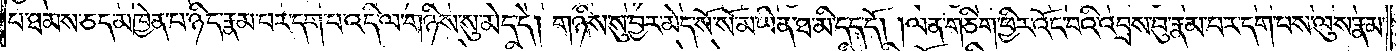པ་ཐམས་ཅད་མཁྱེན་པ་ཉིད་རྣམ་པར་དག་པ་འདི་ལ་གཉིས་སུ་མེད་དེ། གཉིས་སུ་བྱར་མེད་སོ་སོ་མ་ཡིན་ཐ་མི་དད་དོ། །ལན་གཅིག་ཕྱིར་འོང་བའི་འབྲས་བུ་རྣམ་པར་དག་པས་ལུས་རྣམ་
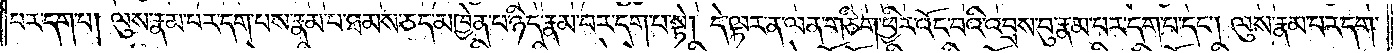པར་དག་པ། ལུས་རྣམ་པར་དག་པས་རྣམ་པ་ཐམས་ཅད་མཁྱེན་པ་ཉིད་རྣམ་པར་དག་པ་སྟེ། དེ་ལྟར་ན་ལན་གཅིག་ཕྱིར་འོང་བའི་འབྲས་བུ་རྣམ་པར་དག་པ་དང༌། ལུས་རྣམ་པར་དག་
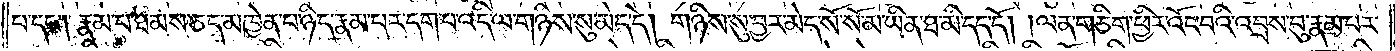པ་དང༌། རྣམ་པ་ཐམས་ཅད་མཁྱེན་པ་ཉིད་རྣམ་པར་དག་པ་འདི་ལ་གཉིས་སུ་མེད་དེ། གཉིས་སུ་བྱར་མེད་སོ་སོ་མ་ཡིན་ཐ་མི་དད་དོ། །ལན་གཅིག་ཕྱིར་འོང་བའི་འབྲས་བུ་རྣམ་པར་
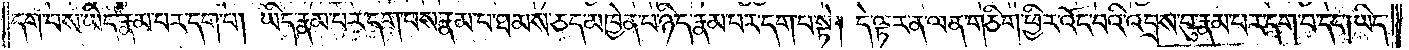དག་པས་ཡིད་རྣམ་པར་དག་པ། ཡིད་རྣམ་པར་དག་པས་རྣམ་པ་ཐམས་ཅད་མཁྱེན་པ་ཉིད་རྣམ་པར་དག་པ་སྟེ། དེ་ལྟར་ན་ལན་གཅིག་ཕྱིར་འོང་བའི་འབྲས་བུ་རྣམ་པར་དག་པ་དང༌། ཡིད་
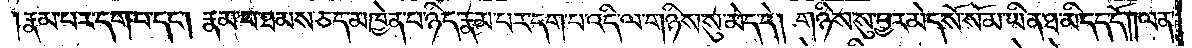རྣམ་པར་དག་པ་དང༌། རྣམ་པ་ཐམས་ཅད་མཁྱེན་པ་ཉིད་རྣམ་པར་དག་པ་འདི་ལ་གཉིས་སུ་མེད་དེ། གཉིས་སུ་བྱར་མེད་སོ་སོ་མ་ཡིན་ཐ་མི་དད་དོ། །ལན་
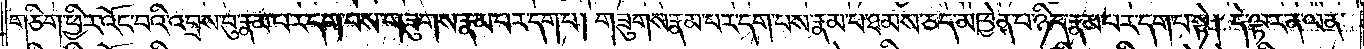གཅིག་ཕྱིར་འོང་བའི་འབྲས་བུ་རྣམ་པར་དག་པས་གཟུགས་རྣམ་པར་དག་པ། གཟུགས་རྣམ་པར་དག་པས་རྣམ་པ་ཐམས་ཅད་མཁྱེན་པ་ཉིད་རྣམ་པར་དག་པ་སྟེ། དེ་ལྟར་ན་ལན་
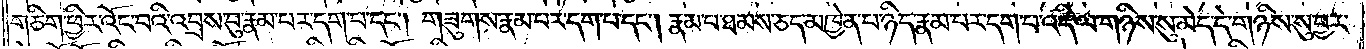གཅིག་ཕྱིར་འོང་བའི་འབྲས་བུ་རྣམ་པར་དག་པ་དང༌། གཟུགས་རྣམ་པར་དག་པ་དང༌། རྣམ་པ་ཐམས་ཅད་མཁྱེན་པ་ཉིད་རྣམ་པར་དག་པ་འདི་ལ་གཉིས་སུ་མེད་དེ་གཉིས་སུ་བྱར་
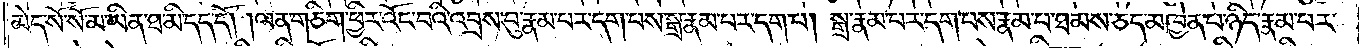མེད་སོ་སོ་མ་ཡིན་ཐ་མི་དད་དོ། །ལན་གཅིག་ཕྱིར་འོང་བའི་འབྲས་བུ་རྣམ་པར་དག་པས་སྒྲ་རྣམ་པར་དག་པ། སྒྲ་རྣམ་པར་དག་པས་རྣམ་པ་ཐམས་ཅད་མཁྱེན་པ་ཉིད་རྣམ་པར་
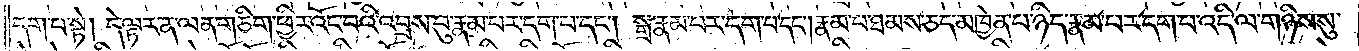དག་པ་སྟེ། དེ་ལྟར་ན་ལན་གཅིག་ཕྱིར་འོང་བའི་འབྲས་བུ་རྣམ་པར་དག་པ་དང༌། སྒྲ་རྣམ་པར་དག་པ་དང༌། རྣམ་པ་ཐམས་ཅད་མཁྱེན་པ་ཉིད་རྣམ་པར་དག་པ་འདི་ལ་གཉིས་སུ་
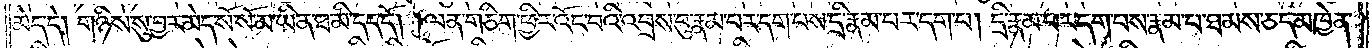མེད་དེ། གཉིས་སུ་བྱར་མེད་སོ་སོ་མ་ཡིན་ཐ་མི་དད་དོ། །ལན་གཅིག་ཕྱིར་འོང་བའི་འབྲས་བུ་རྣམ་པར་དག་པས་དྲི་རྣམ་པར་དག་པ། དྲི་རྣམ་པར་དག་པས་རྣམ་པ་ཐམས་ཅད་མཁྱེན་
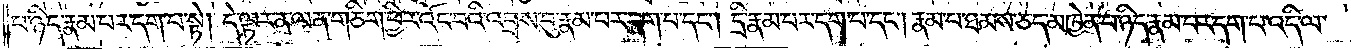པ་ཉིད་རྣམ་པར་དག་པ་སྟེ། དེ་ལྟར་ན་ལན་གཅིག་ཕྱིར་འོང་བའི་འབྲས་བུ་རྣམ་པར་དག་པ་དང༌། དྲི་རྣམ་པར་དག་པ་དང༌། རྣམ་པ་ཐམས་ཅད་མཁྱེན་པ་ཉིད་རྣམ་པར་དག་པ་འདི་ལ་
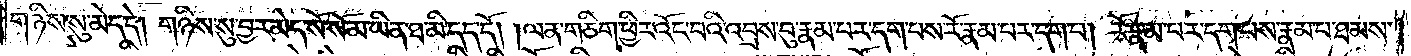གཉིས་སུ་མེད་དེ། གཉིས་སུ་བྱར་མེད་སོ་སོ་མ་ཡིན་ཐ་མི་དད་དོ། །ལན་གཅིག་ཕྱིར་འོང་བའི་འབྲས་བུ་རྣམ་པར་དག་པས་རོ་རྣམ་པར་དག་པ། རོ་རྣམ་པར་དག་པས་རྣམ་པ་ཐམས་
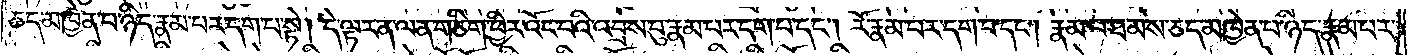ཅད་མཁྱེན་པ་ཉིད་རྣམ་པར་དག་པ་སྟེ། དེ་ལྟར་ན་ལན་གཅིག་ཕྱིར་འོང་བའི་འབྲས་བུ་རྣམ་པར་དག་པ་དང༌། རོ་རྣམ་པར་དག་པ་དང༌། རྣམ་པ་ཐམས་ཅད་མཁྱེན་པ་ཉིད་རྣམ་པར་
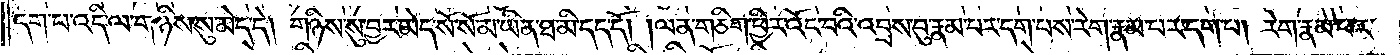དག་པ་འདི་ལ་གཉིས་སུ་མེད་དེ། གཉིས་སུ་བྱར་མེད་སོ་སོ་མ་ཡིན་ཐ་མི་དད་དོ། །ལན་གཅིག་ཕྱིར་འོང་བའི་འབྲས་བུ་རྣམ་པར་དག་པས་རེག་རྣམ་པར་དག་པ། རེག་རྣམ་པར་
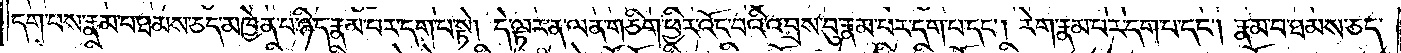དག་པས་རྣམ་པ་ཐམས་ཅད་མཁྱེན་པ་ཉིད་རྣམ་པར་དག་པ་སྟེ། དེ་ལྟར་ན་ལན་གཅིག་ཕྱིར་འོང་བའི་འབྲས་བུ་རྣམ་པར་དག་པ་དང༌། རེག་རྣམ་པར་དག་པ་དང༌། རྣམ་པ་ཐམས་ཅད་
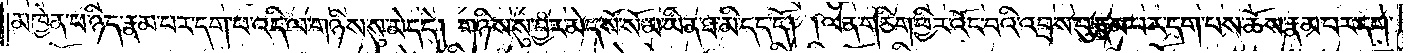མཁྱེན་པ་ཉིད་རྣམ་པར་དག་པ་འདི་ལ་གཉིས་སུ་མེད་དེ། གཉིས་སུ་བྱར་མེད་སོ་སོ་མ་ཡིན་ཐ་མི་དད་དོ། །ལན་གཅིག་ཕྱིར་འོང་བའི་འབྲས་བུ་རྣམ་པར་དག་པས་ཆོས་རྣམ་པར་དག་
